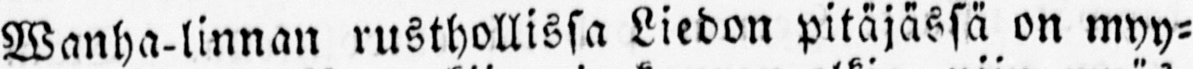Wanha-linnan rusthollissa Liedon pitäjässä on myy-
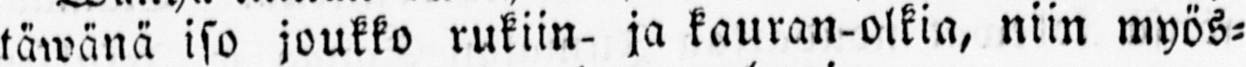täwänä iso joukko rukiin- ja kauran-olkia, niin myös-
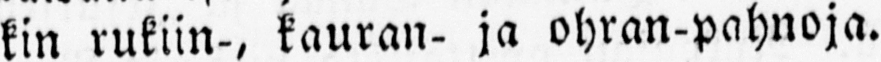kin rukiin-, kauran- ja ohran-pahnoja.
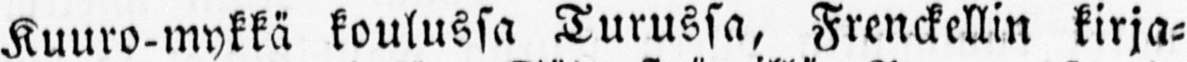Kuuro-mykkä koulussa Turussa, Frenckellin kirja-
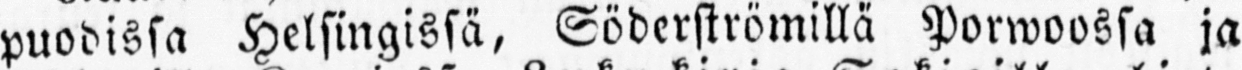puodissa Helsingissä, Söderströmillä Porwoossa ja
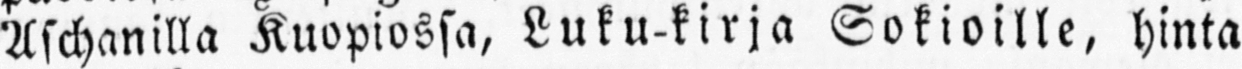Aschanilla Kuopiossa, Luku-kirja Sokioille, hinta
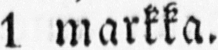1 markka.
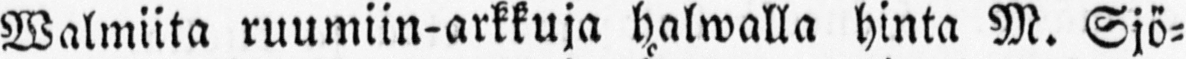Walmiita ruumiin-arkkuja halwalla hinta M. Sjö-
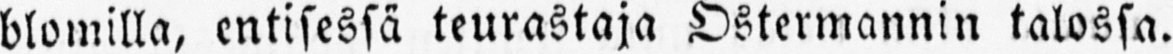blomilla, entisessä teurastaja Östermannin talossa.
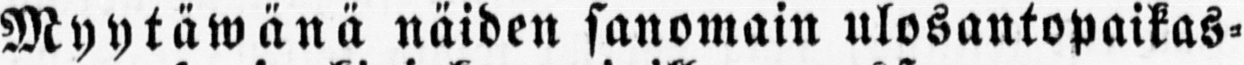Myytäwänä näiden sanomain ulosantopaikas-
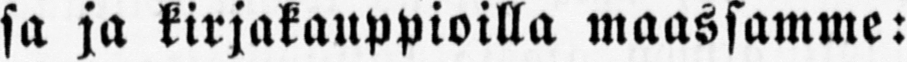sa ja kirjakauppioilla maassamme:
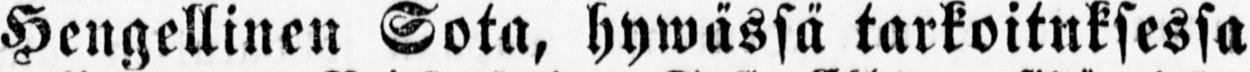Hengellinen Sota, hywässä tarkoituksessa
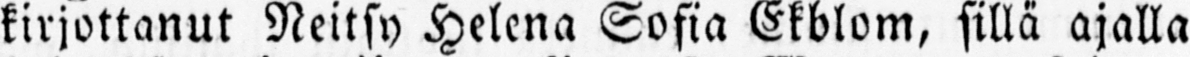kirjottanut Neitsy Helena Sofia Ekblom, sillä ajalla
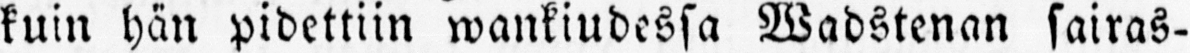kuin hän pidettiin wankiudessa Wadstenan sairas-
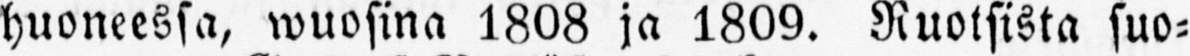huoneessa, wuosina 1808 ja 1809. Ruotsista suo-
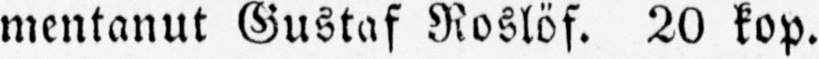mentanut Gustaf Roslöf. 20 kop.
